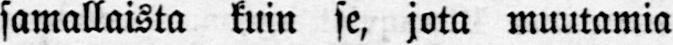samallaista kuin se, jota muutamia
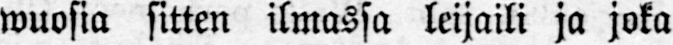wuosia sitten ilmassa leijaili ja joka
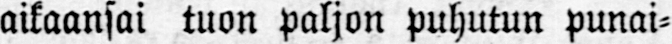aikaansai tuon paljon puhutun punai-
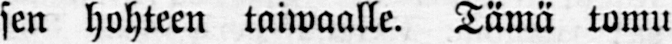sen hohteen taiwaalle. Tämä tomu
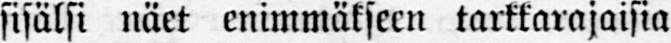sisälsi näet enimmäkseen tarkkarajaisia
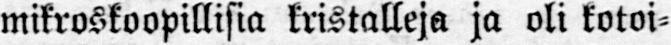mikroskoopillisia kristalleja ja oli kotoi-
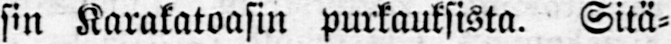sin Karakatoasin purkauksista. Sitä-
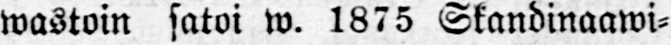wastoin satoi w. 1875 Skandinaawi-
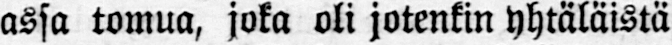assa tomua, joka oli jotenkin yhtäläistä
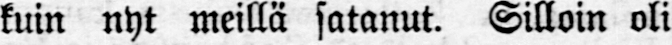kuin nyt meillä satanut. Silloin oli
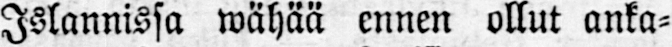Islannissa wähää ennen ollut anka-
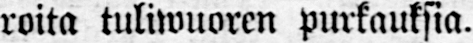roita tuliwuoren purkauksia.
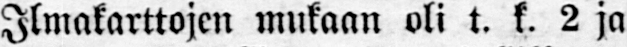Ilmakarttojen mukaan oli t. k. 2 ja
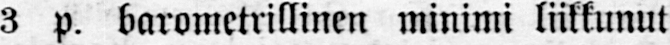3 p. barometrillinen minimi liikkunut
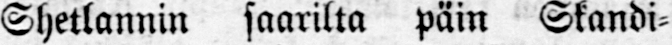Shetlannin saarilta päin Skandi-
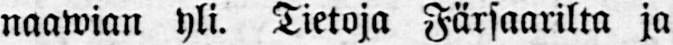naawian yli. Tietoja Färsaarilta ja
